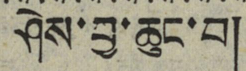ཤེས་བྱ་ཆུང་བ།
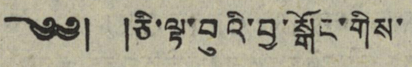༄༅། །ཅི་ལྟ་བུའི་བྱ་སྒོང་གིས་
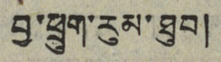བྱ་ཕྲུག་རུམ་ཐུབ།
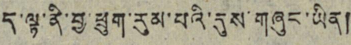ད་ལྟ་ནི་བྱ་ཕྲུག་རུམ་པའི་དུས་གཞུང་ཡིན།
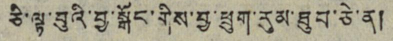ཅི་ལྟ་བུའི་བྱ་སྒོང་གིས་བྱ་ཕྲུག་རུམ་ཐུབ་ཅེ་ན།
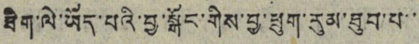ཐིག་ལེ་ཡོད་པའི་བྱ་སྒོང་གིས་བྱ་ཕྲུག་རུམ་ཐུབ་པ་་
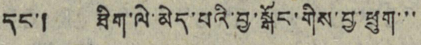དང་། ཐིག་ལེ་མེད་པའི་བྱ་སྒོང་གིས་བྱ་ཕྲུག་་་
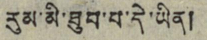རུམ་མི་ཐུབ་པ་དེ་ཡིན།
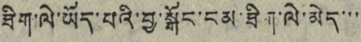ཐིག་ལེ་ཡོད་པའི་བྱ་སྒྱོང་ངམ་ཐིག་ལེ་མེད་་་
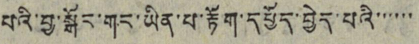པའི་བྱ་སྒོང་གང་ཡིན་པ་རྟོག་དཔྱོད་བྱེད་པའི་་་་་་
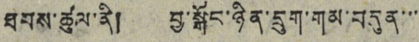ཐབས་ཚུལ་ནི། བྱ་སྒོང་ཉིན་དྲུག་གམ་བདུན་་་
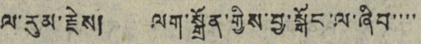ལ་རུམ་རྗེས། ལག་སྒྲོན་གྱིས་བྱ་སྒོང་ལ་ཞིབ་་་་
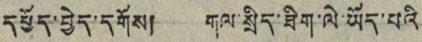དཔྱོད་བྱེད་དགོས། གལ་སྲིད་ཐིག་ལེ་ཡོད་པའི་
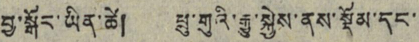བྱ་སྒོར་ཡིན་ཚེ། པྲུ་གུའི་རྒྱུ་སྐྱེས་ནས་སྡོམ་དང་
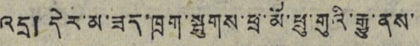འདྲ། དེར་མ་ཟད་ཁྲག་སྦྲགས་ཕྲ་མོ་ཕྲུ་གུའི་རྒྱུ་ནས་
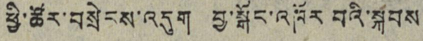ཕྱི་ཚོར་བསྲེངས་འདུག བྱ་སྒོང་འཁོར བའི་སྐབས
